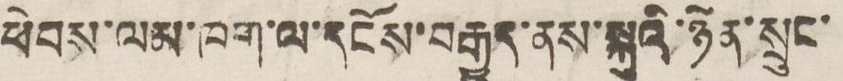ཕེབས་ལམ་ཁག་ལ་དངོས་བརྒྱུད་ནས་སྐུའི་ཉེན་སྲུང་
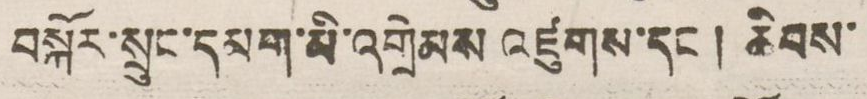བསྐོར་སྲུང་དམག་མི་འགྲེམས འཛུམས་དང་། ཆིབས་
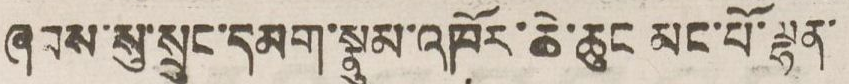ཞབས་སུ་སྲུང་དམག་སྣུམ་འཁོར་ཆེ་ཆུང མང་པོ་ལྷན་
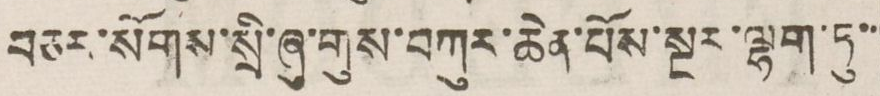བཅར་སོགས་སྲི་ཞུ་གུས་བཀུར་ཆེན་པོས་སྔར་ལྷག་ཏུ་
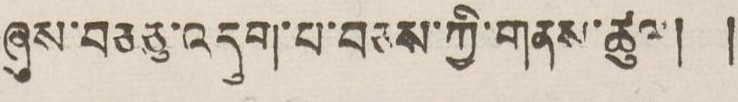ཞུས་བཅཅུ་འདུག་པ་བཅས་ཀྱི་གནས་ཚུལ། །
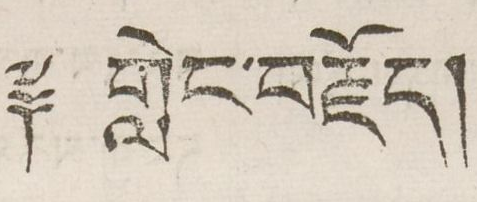༈ གླེང་བརྗོད།
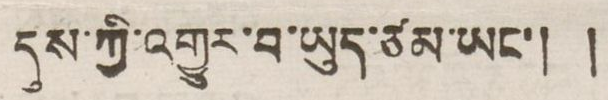དུས་ཀྱི་འགྱུར་བ་ཡུད་ཙམ་ཡང་། །
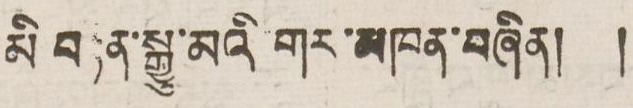མི་བརྟན་སྒྱུ་མའི གར་མཁན་བཞིན། །
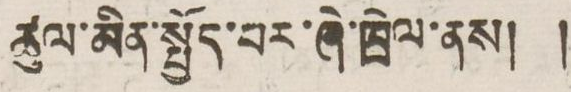ཚུལ་མིན་སྤྱོད་པར་ཞེ་ཁྲེལ་ནས། །
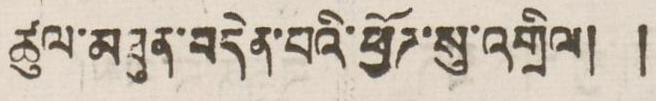ཚུལ་མཐུན་བདེན་པའི་ཕྱོཊ་སུ་འགྲིལ། །
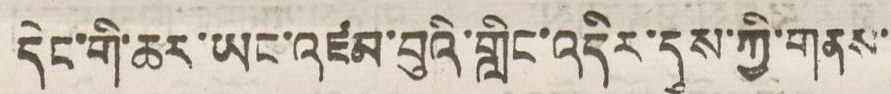དེང་གི་ཆར་ཡང་འཛམ་བུའི་གླིང་འདིར་དུས་ཀྱི་གནས་
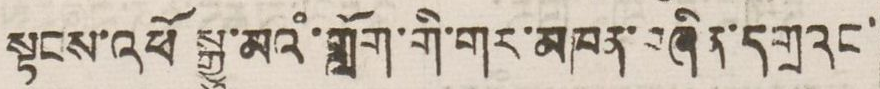སྟབས་འཕོ སྒྱུ་མའཾ་གློག་གི་གར་མཁན་བཞིན་དགྲའང་
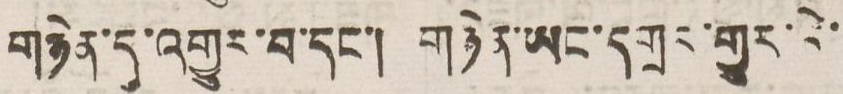གཉེན་དུ་འགྱུར་བ་དང་། གཉེན་ཡང་དགྲར་གྱུར་ཏེ་
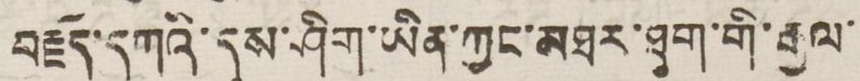བརྗོད་དཀའི་དུས་ཤིག་ཡིན་ཀྱང་མཐར་ཐུག་གི་རྒྱལ་
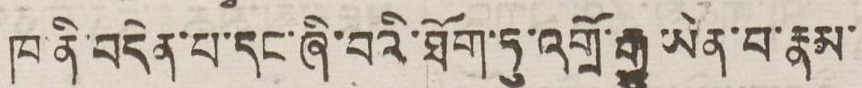ཁ ནི་བདེན་པ་དང་ཞི་བའི་ཐོག་ཏུ་འགྲོ་རྒྱུ ཡིན་པ་རྣམ་
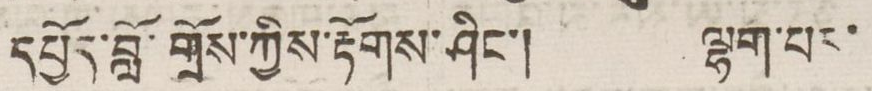དཔྱོད་བློ་གྲོས་ཀྱིས་རྟོགས་ཤིང་། ལྷག་པར་
